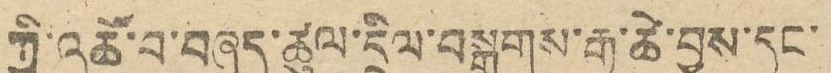ཀྱི་འཚོ་བ་བཞད་ཚུལ་དྲིལ་བསྒྲགས་རྒྱ་ཆེ་བྱས་དང་
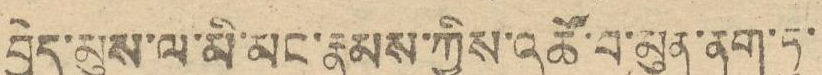བྱེད་མུས་ལ་མི་མང་རྣམས་ཀྱིས་འཚོ་བ་མུན་ནག་ཏུ་
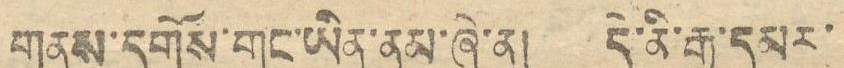གནས་དགོས་གང་ཡིན་ནམ་ཞེ་ན། དེ་ནི་རྒྱ་དམར་
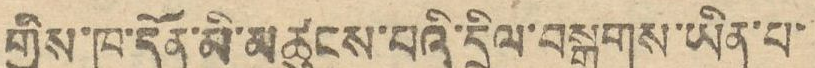གྱིས་ཁ་དོན་མི་མཚུངས་པའི་དྲིལ་བསྒྲགས་ཡིན་པ་
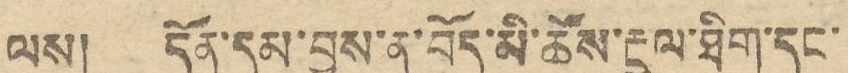ལས། དོན་དམ་བྱས་ན་བོད་མི་ཚོས་རྔུལ་ཐིག་དང་
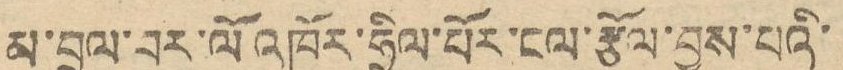མ་བྲལ་བར་ལོ་འཁོར་ཧྲིལ་པོར་ངལ་རྩོལ་བྱས་པའི་
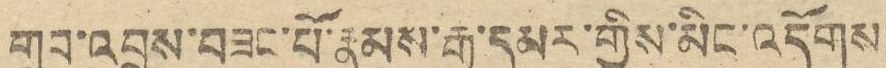གྲུབ་འབྲས་བཟང་པོ་རྣམས་རྒྱ་དམར་གྱིས་མིང་འདོགས
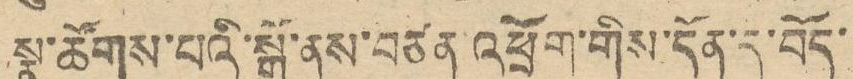སྣ་ཚོགས་པའི་སྒོ་ནས་བཙན་འཕྲོག་གིས་དོན་དུ་བོད་
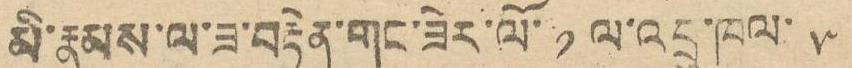མི་རྣམས་ལ་ཟ་བརྟེན་གང་ཟེར་ལོ་ ༡ ལ་འབྲུ་ཁལ་ ༥
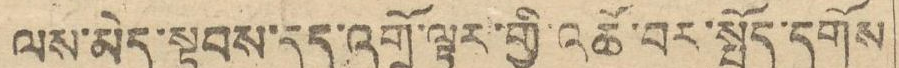ལས་མེད་སྟབས་དུད་འགྲོ་ལྟར་གྱི་འཚོ་བར་སྤྱོད་དགོས
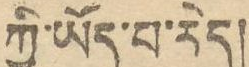ཀྱི་ཡོད་པ་རེད།
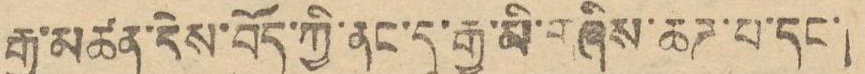རྒྱུ་མཚན་དེས་བོད་ཀྱི་ནང་དུ་རྒྱ་མི་གཞིས་ཆཊ་པ་དང་།
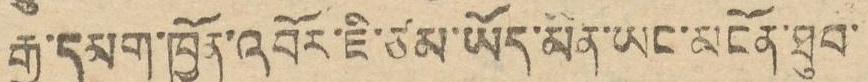རྒྱ་དམག་ཁྱོན་འབོར་ཇི་ཙམ་ཡོད་མིན་ཡང་མངོན་ཐུབ་
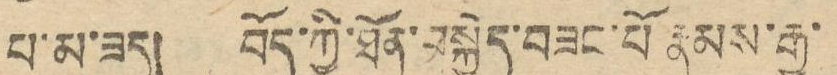པ་མ་ཟད། བོད་ཀྱི་ཐོན་བསྐྱེད་བཟང་པོ རྣམས་རྒྱ་
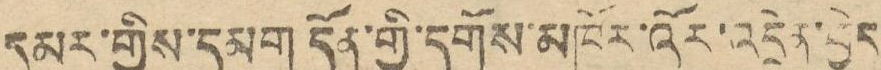དམར་གྱིས་དམག དོན་གྱི་དགོས་མཁོར་འོར་འདྲེན་བྱེད
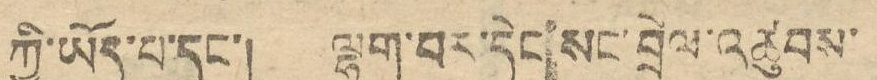ཀྱི་ཡོད་པ་དང་། ལྷག་བར་དེང་སང་བྲེལ་འཚུབས་
